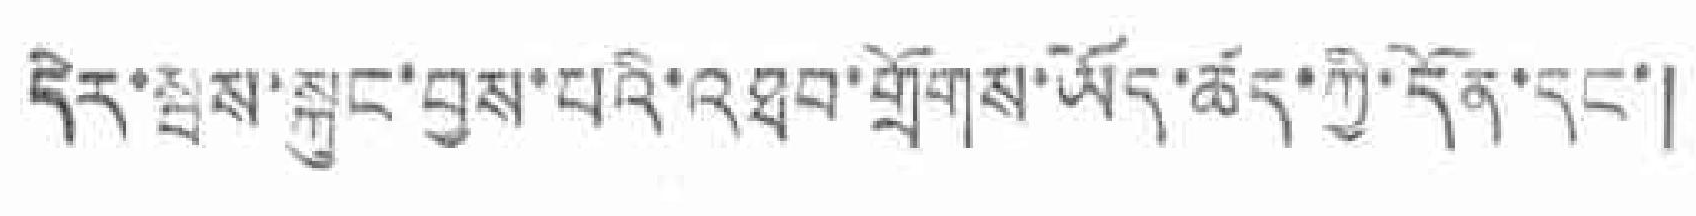དེར་སྦས་སྐུང་བྱས་པའི་འཐབ་གྲོགས་ཡོད་ཚད་ཀྱི་དོན་དང་།
